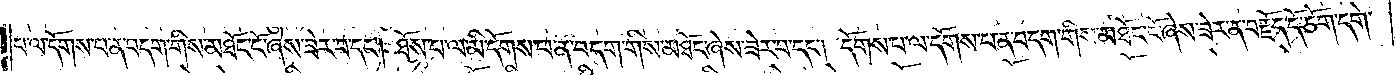པ་ལ་དོགས་པ་ན་བདག་གིས་མཐོང་ངོ་ཞེས་ཟེར་བ་དང༌། ཐོས་པ་ལ་མི་དོགས་པ་ན་བདག་གིས་མཐོང་ཞེས་ཟེར་བ་དང༌། དོགས་པ་ལ་དོགས་པ་ན་བདག་གིས་མཐོང་ངོ་ཞེས་ཟེར་ན་བརྗོད་དོ་ཅོག་དགེ་
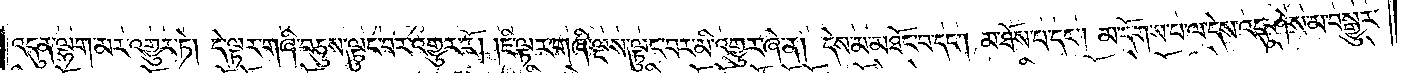འདུན་ལྷག་མར་འགྱུར་ཏེ། དེ་ལྟར་གཞི་བཅུས་ལྟུང་བར་འགྱུར་རོ། །ཇི་ལྟར་གཞི་ལྔས་ལྟུང་བར་མི་འགྱུར་ཞེ་ན། དེས་མ་མཐོང་བ་དང༌། མ་ཐོས་པ་དང༌། མ་དོགས་པ་ལ་དེས་འདུ་ཤེས་མ་བསྒྱུར་
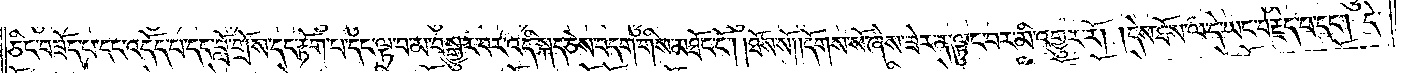ཅིང་བཟོད་པ་དང་འདོད་པ་དང་བློ་གྲོས་དང་རྟོག་པ་དང་ལྟ་བ་མ་བསྒྱུར་བར་འདི་སྐད་ཅེས་བདག་གིས་མཐོང་ངོ༌། །ཐོས་སོ། །དོགས་སོ་ཞེས་ཟེར་ན་ལྟུང་བར་མི་འགྱུར་རོ། །དེས་ཐོས་ལ་དེ་ཡང་བརྗེད་པ་དང༌། དེ་
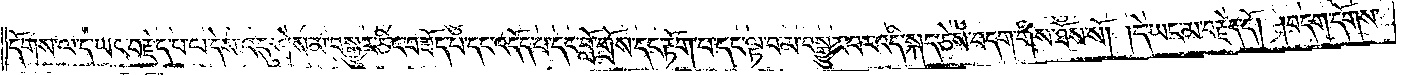དོགས་ལ་དེ་ཡང་བརྗེད་པ་ལ་དེས་འདུ་ཤེས་མ་བསྒྱུར་ཅིང་བཟོད་པ་དང་འདོད་པ་དང་བློ་གྲོས་དང་རྟོག་པ་དང་ལྟ་བ་མ་བསྒྱུར་བར་འདི་སྐད་ཅེས་བདག་གིས་ཐོས་སོ། །དེ་ཡང་མ་བརྗེད་དོ། །བདག་དོགས་
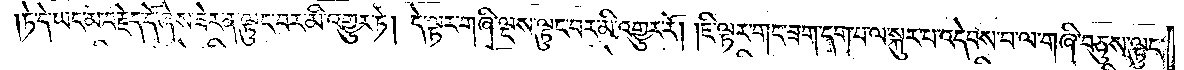ཏེ་དེ་ཡང་མ་བརྗེད་དོ་ཞེས་ཟེར་ན་ལྟུང་བར་མི་འགྱུར་ཏེ། དེ་ལྟར་གཞི་ལྔས་ལྟུང་བར་མི་འགྱུར་རོ། །ཇི་ལྟར་གང་ཟག་དག་པ་ལ་སྐུར་པ་འདེབས་པ་ལ་གཞི་བཅུས་ལྟུང་
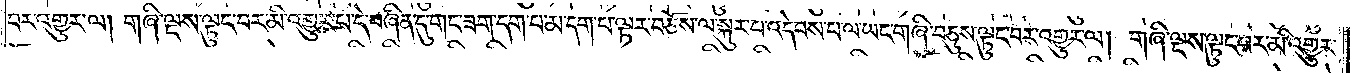བར་འགྱུར་ལ། གཞི་ལྔས་ལྟུང་བར་མི་འགྱུར་བ་དེ་བཞིན་དུ་གང་ཟག་དག་པ་མ་དག་པ་ལྟར་བཅོས་ལ་སྐུར་པ་འདེབས་པ་ལ་ཡང་གཞི་བཅུས་ལྟུང་བར་འགྱུར་ལ། གཞི་ལྔས་ལྟུང་བར་མི་འགྱུར་
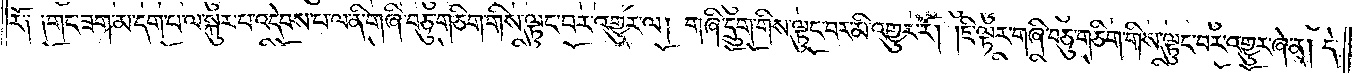རོ༑ ༑གང་ཟག་མ་དག་པ་ལ་སྐུར་པ་འདེབས་པ་ལ་ནི་གཞི་བཅུ་གཅིག་གིས་ལྟུང་བར་འགྱུར་ལ། གཞི་དྲུག་གིས་ལྟུང་བར་མི་འགྱུར་རོ། །ཇི་ལྟར་གཞི་བཅུ་གཅིག་གིས་ལྟུང་བར་འགྱུར་ཞེ་ན། དེ་
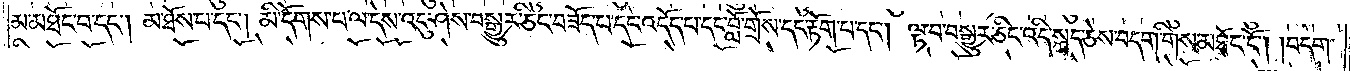མ་མཐོང་བ་དང༌། མ་ཐོས་པ་དང༌། མི་དོགས་པ་ལ་དེས་འདུ་ཤེས་བསྒྱུར་ཅིང་བཟོད་པ་དང་འདོད་པ་དང་བློ་གྲོས་དང་རྟོག་པ་དང༌། ལྟ་བ་བསྒྱུར་ཅིང་འདི་སྐད་ཅེས་བདག་གིས་མཐོང་ངོ༌། །བདག་
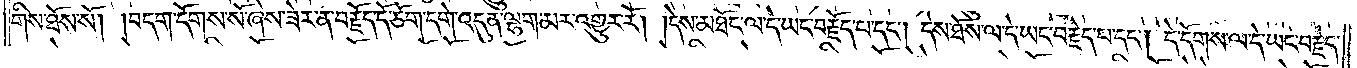གིས་ཐོས་སོ། །བདག་དོགས་སོ་ཞེས་ཟེར་ན་བརྗོད་དོ་ཅོག་དགེ་འདུན་ལྷག་མར་འགྱུར་རོ། །དེས་མཐོང་ལ་དེ་ཡང་བརྗོད་པ་དང༌། དེས་ཐོས་ལ་དེ་ཡང་བརྗེད་པ་དང༌། དེ་དོགས་ལ་དེ་ཡང་བརྗེད་
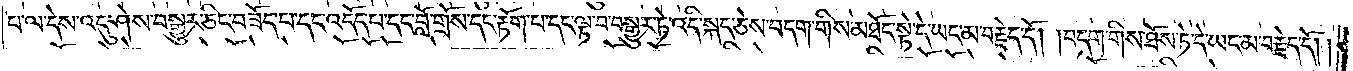པ་ལ་དེས་འདུ་ཤེས་བསྒྱུར་ཅིང་བཟོད་པ་དང་འདོད་པ་དང་བློ་གྲོས་དང་རྟོག་པ་དང་ལྟ་བ་བསྒྱུར་ཏེ་འདི་སྐད་ཅེས་བདག་གིས་མཐོང་སྟེ་དེ་ཡང་མ་བརྗེད་དོ། །བདག་གིས་ཐོས་ཏེ་དེ་ཡང་མ་བརྗེད་དོ། །
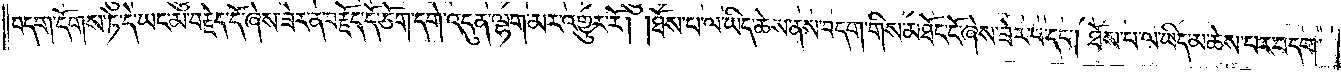བདག་དོགས་ཏེ་དེ་ཡང་མ་བརྗེད་དོ་ཞེས་ཟེར་ན་བརྗོད་དོ་ཅོག་དགེ་འདུན་ལྷག་མར་འགྱུར་རོ། །ཐོས་པ་ལ་ཡིད་ཆེས་ནས་བདག་གིས་མཐོང་ངོ་ཞེས་ཟེར་བ་དང༌། ཐོས་པ་ལ་ཡིད་མ་ཆེས་པར་བདག་
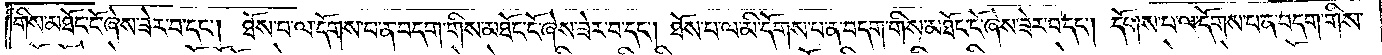གིས་མཐོང་ངོ་ཞེས་ཟེར་བ་དང༌། ཐོས་པ་ལ་དོགས་པ་ན་བདག་གིས་མཐོང་ངོ་ཞེས་ཟེར་བ་དང༌། ཐོས་པ་ལ་མི་དོགས་པ་ན་བདག་གིས་མཐོང་ངོ་ཞེས་ཟེར་བ་དང༌། དོགས་པ་ལ་དོགས་པ་ན་བདག་གིས་
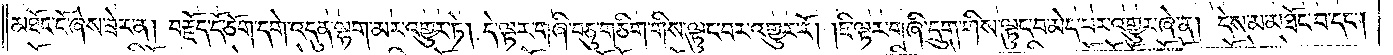མཐོང་ངོ་ཞེས་ཟེར་ན། བརྗོད་དོ་ཅོག་དགེ་འདུན་ལྷག་མར་འགྱུར་ཏེ། དེ་ལྟར་གཞི་བཅུ་གཅིག་གིས་ལྟུང་བར་འགྱུར་རོ། །ཇི་ལྟར་གཞི་དྲུག་གིས་ལྟུང་བ་མེད་པར་འགྱུར་ཞེ་ན། དེས་མ་མཐོང་བ་དང༌།
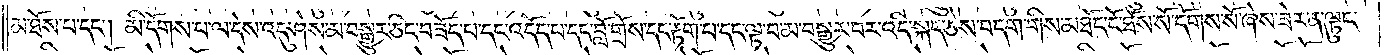མ་ཐོས་པ་དང༌། མི་དོགས་པ་ལ་དེས་འདུ་ཤེས་མ་བསྒྱུར་ཅིང་བཟོད་པ་དང་འདོད་པ་དང་བློ་གྲོས་དང་རྟོག་པ་དང་ལྟ་བ་མ་བསྒྱུར་བར་འདི་སྐད་ཅེས་བདག་གིས་མཐོང་ངོ་ཐོས་སོ་དོགས་སོ་ཞེས་ཟེར་ན་ལྟུང་
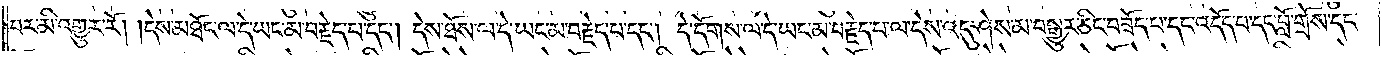བར་མི་འགྱུར་རོ། །དེས་མཐོང་ལ་དེ་ཡང་མ་བརྗེད་པ་དང༌། དེས་ཐོས་ལ་དེ་ཡང་མ་བརྗེད་པ་དང༌། དེ་དོགས་ལ་དེ་ཡང་མ་བརྗེད་པ་ལ་དེས་འདུ་ཤེས་མ་བསྒྱུར་ཅིང་བཟོད་པ་དང་འདོད་པ་དང་བློ་གྲོས་དང་
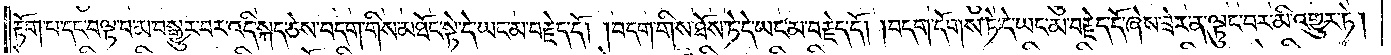རྟོག་པ་དང་བལྟ་བ་མ་བསྒྱུར་བར་འདི་སྐད་ཅེས་བདག་གིས་མཐོང་སྟེ་དེ་ཡང་མ་བརྗེད་དོ། །བདག་གིས་ཐོས་ཏེ་དེ་ཡང་མ་བརྗེད་དོ། བདག་དོགས་ཏེ་དེ་ཡང་མ་བརྗེད་དོ་ཞེས་ཟེར་ན་ལྟུང་བར་མི་འགྱུར་ཏེ།
